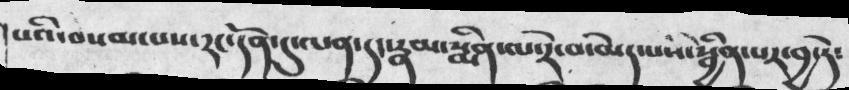པའི་བསམ་པས་རང་དོན་ལན་དུ་རྣམ་སྨིན་ལ་རེ་བ་མེད་པས་སྦྱིན་པར་བྱ་དེ༴
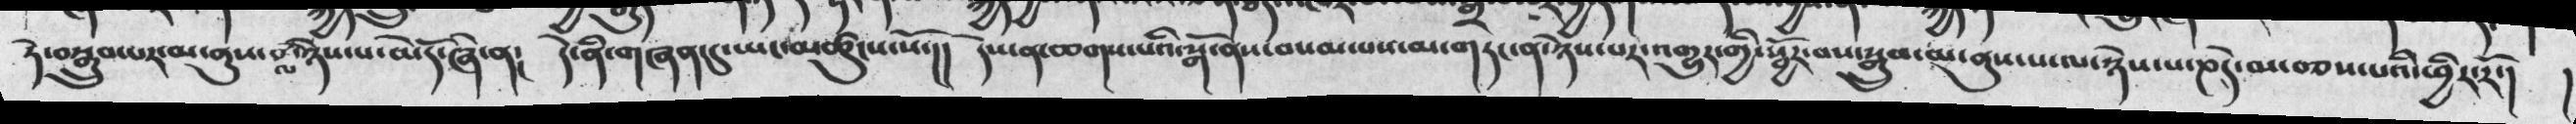ཏེ་བསྒྲུབ་པར་མ་ནུས་པལ་ཉེས་མ་མེདོ་ཞི་ན༴  དེ་ནི་གཞན་དུ་ཡང་མཚུངས་སོ་།།  དེས་ན་ཆགས་པའི་སྒོ་ནས་བསམ་པས་མ་གཏང་ན་ཉེས་པར་འགྱུར་གྱི་སྦྱོར་བ་སྒྲུབ་མ་ནུས་པ་ལ་ཉེས་པ་ཎདེ་མ་བཅས་པའི་ཕྱིར་རོ་།  །
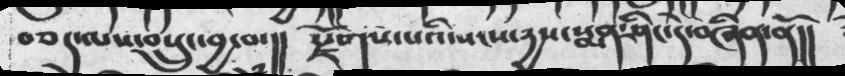བཅད་ལས་བསྲུང་བྱ་བ་།།  སྫོགས་པའི་སངས་དྱས་སྨན་ཤིང་དེ་བཞིན་ནོ།།
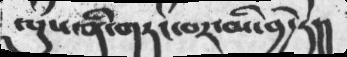ལུས་ནི་གཏང་བར་མི་བྱ་དེ།།
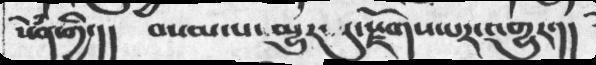སེཾན་གྱི་།། བསམ་པ་མྱུར་དུ་སྫོགས་པར་འགྱུར་།།
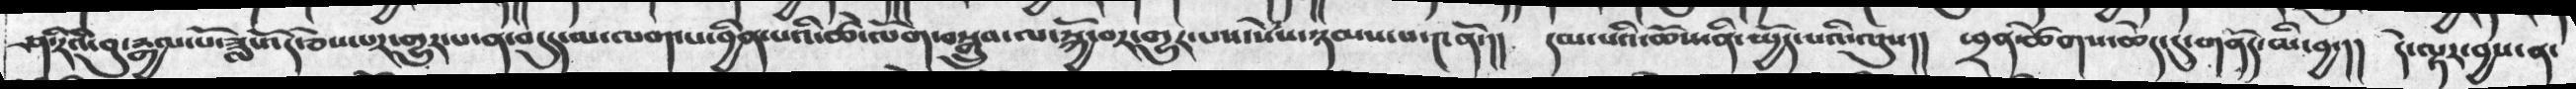ཤ་རིའི་བུ་རྒྱལ་པོ་ཟླ་འོད་ཅེས་པར་གྱུར་པ་ན་བདུད་ལ་ལག་པ་བྱིན་པའི་ཚེ་ལོག་བསྒྲུབ་ལ་སྐྱོ་བར་གྱུར་པས་སེཾས་ཉམས་པ་༤ནོ་།། དམ་པའི་ཆོས་ནི་སྤྱོད་པའི་ལུས།། ཕྲན་ཚེགས་ཆེད་དུ་གནོད་མི་བྱ་།། དེ་ལྟར་བྱས་ན་
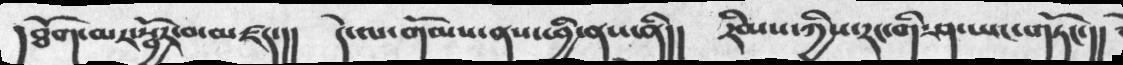།ཐོག་མར་སྦྱོར་བ་མཛད་།། དེ་ལ་གོམས་ནས་ཕྱི་ནས་ནི།། རིམས་ཀྱིས་རང་གི་ཤ་ཡང་གཏོང་།།
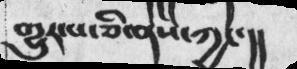གྱུར་པ་ཅི་ནས་ཀྱང་།།
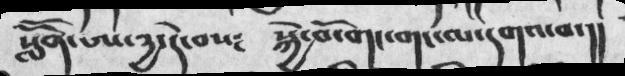སློོན་ཨ་རྱ་དེ་བས༴ སྐྱེ་བོ་གང་གང་ལ་དགའ་བ་།།
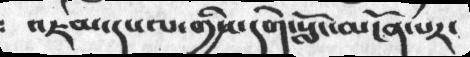འཇམ་དཔལ་གྱིས་དགེ་སློང་མངོན་པར་
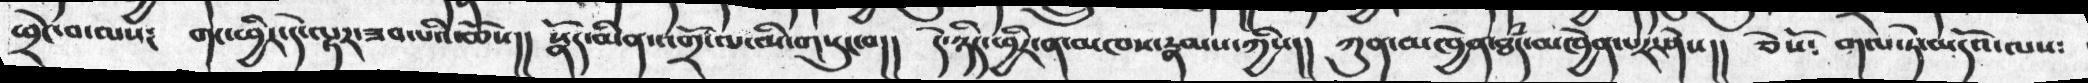ཕྲེང་བ་ལས༴  གང་ཕྱིར་དེ་ལྟར་ཟབ་པའི་ཆོས།།  སྣོད་མིན་འགྲོ་ལ་མི་གསུང་བ།།  དེ་ཉིད་ཕྱིར་ན་མཁས་རྣམས་ཀྱིས།།  ཀུན་མཁྱེན་ཐཾད་མཁྱེན་པར་ཤེས།། ཅེསོ༴  གལ་ཏེ་མདོའ་ལས༴
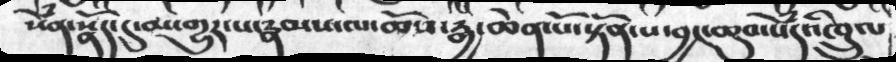སེཾན་སྣོད་དུ་མ་གྱུར་པ་རྣམས་ལ་ཆོས་རྒྱ་ཆེན་པོ་སྟོན་པ་བྱང་ཆུབ་སེཾདའིཁྲུལ
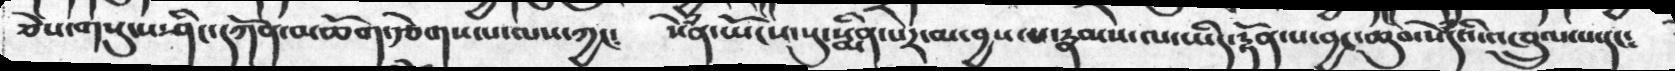ཅེས་གསུངས་ཤིང་དཀོན་མཆོག་རྩེགས་པ་ལས་ཀྱང༴ སེཾན་ཡོངས་སུ་སྨིན་པར་མ་བྱས་པ་རྣམས་ལ་ཡིད་རྟོན་པ་བྱང་ཆུབ་སེཾདའི་འཁྲུལ་པ་དང༴
